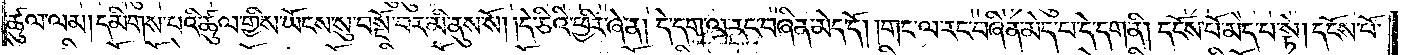ཚུལ་ལམ། དམིགས་པའི་ཚུལ་གྱིས་ཡོངས་སུ་བསྔོ་བར་མི་ནུས་སོ། །དེ་ཅིའི་ཕྱིར་ཞེ་ན། དེ་དག་ལ་རང་བཞིན་མེད་དོ། །གང་ལ་རང་བཞིན་མེད་པ་དེ་དག་ནི། དངོས་པོ་མེད་པ་སྟེ། དངོས་པོ་
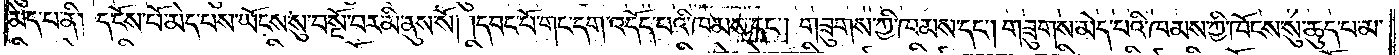མེད་པ་ནི། དངོས་པོ་མེད་པས་ཡོངས་སུ་བསྔོ་བར་མི་ནུས་སོ། །དབང་པོ་གང་དག་འདོད་པའི་ཁམས་དང༌། གཟུགས་ཀྱི་ཁམས་དང༌། གཟུགས་མེད་པའི་ཁམས་ཀྱི་ཁོངས་སུ་ཆུད་པ་མ་
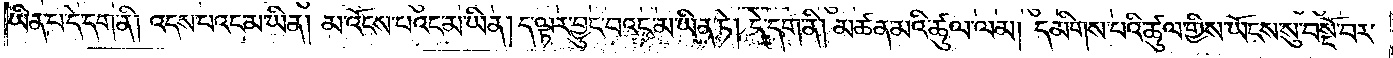ཡིན་པ་དེ་དག་ནི། འདས་པའང་མ་ཡིན། མ་འོངས་པའང་མ་ཡིན། ད་ལྟར་བྱུང་བའང་མ་ཡིན་ཏེ། དེ་དག་ནི། མཚན་མའི་ཚུལ་ལམ། དམིགས་པའི་ཚུལ་གྱིས་ཡོངས་སུ་བསྔོ་བར་
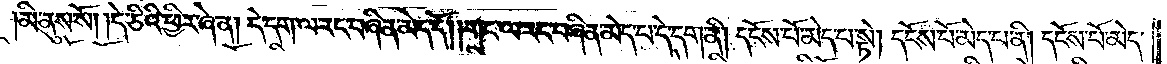མི་ནུས་སོ། །དེ་ཅིའི་ཕྱིར་ཞེ་ན། དེ་དག་ལ་རང་བཞིན་མེད་དོ། །གང་ལ་རང་བཞིན་མེད་པ་དེ་དག་ནི། དངོས་པོ་མེད་པ་སྟེ། དངོས་པོ་མེད་པ་ནི། དངོས་པོ་མེད་
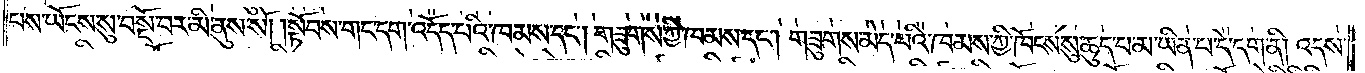པས་ཡོངས་སུ་བསྔོ་བར་མི་ནུས་སོ། །སྟོབས་གང་དག་འདོད་པའི་ཁམས་དང༌། གཟུགས་ཀྱི་ཁམས་དང༌། གཟུགས་མེད་པའི་ཁམས་ཀྱི་ཁོངས་སུ་ཆུད་པ་མ་ཡིན་པ་དེ་དག་ནི། འདས་
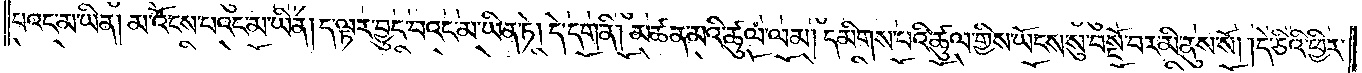པའང་མ་ཡིན། མ་འོངས་པའང་མ་ཡིན། ད་ལྟར་བྱུང་བའང་མ་ཡིན་ཏེ། དེ་དག་ནི། མཚན་མའི་ཚུལ་ལམ། དམིགས་པའི་ཚུལ་གྱིས་ཡོངས་སུ་བསྔོ་བར་མི་ནུས་སོ། །དེ་ཅིའི་ཕྱིར་
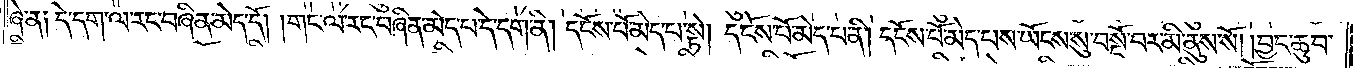ཞེ་ན༑ དེ་དག་ལ་རང་བཞིན་མེད་དོ། །གང་ལ་རང་བཞིན་མེད་པ་དེ་དག་ནི། དངོས་པོ་མེད་པ་སྟེ། དངོས་པོ་མེད་པ་ནི། དངོས་པོ་མེད་པས་ཡོངས་སུ་བསྔོ་བར་མི་ནུས་སོ། །བྱང་ཆུབ་
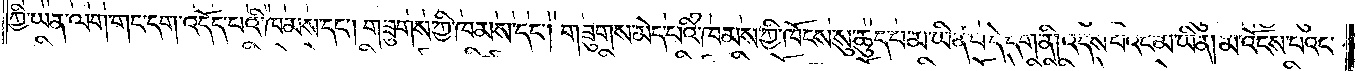ཀྱི་ཡན་ལག་གང་དག་འདོད་པའི་ཁམས་དང༌། གཟུགས་ཀྱི་ཁམས་དང༌། གཟུགས་མེད་པའི་ཁམས་ཀྱི་ཁོངས་སུ་ཆུད་པ་མ་ཡིན་པ་དེ་དག་ནི། འདས་པའང་མ་ཡིན། མ་འོངས་པའང་
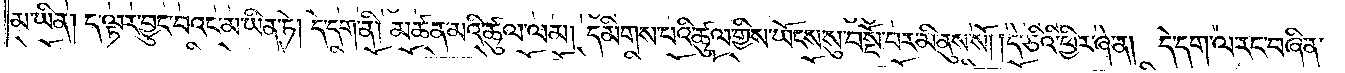མ་ཡིན། ད་ལྟར་བྱུང་པའང་མ་ཡིན་ཏེ། དེ་དག་ནི། མཚན་མའི་ཚུལ་ལམ། དམིགས་པའི་ཚུལ་གྱིས་ཡོངས་སུ་བསྔོ་བར་མི་ནུས་སོ། །དེ་ཅིའི་ཕྱིར་ཞེ་ན། དེ་དག་ལ་རང་བཞིན་
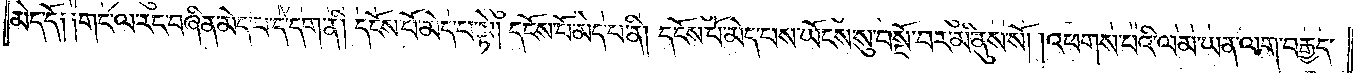མེད་དོ༑ ༑གང་ལ་རང་བཞིན་མེད་པ་དེ་དག་ནི། དངོས་པོ་མེད་པ་སྟེ། དངོས་པོ་མེད་པ་ནི། དངོས་པོ་མེད་པས་ཡོངས་སུ་བསྔོ་བར་མི་ནུས་སོ། །འཕགས་པའི་ལམ་ཡན་ལག་བརྒྱད་
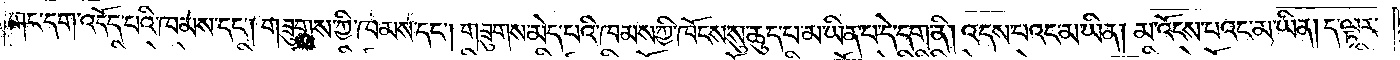གང་དག་འདོད་པའི་ཁམས་དང༌། གཟུགས་ཀྱི་ཁམས་དང༌། གཟུགས་མེད་པའི་ཁམས་ཀྱི་ཁོངས་སུ་ཆུད་པ་མ་ཡིན་པ་དེ་དག་ནི། འདས་པའང་མ་ཡིན། མ་འོངས་པའང་མ་ཡིན། ད་ལྟར་
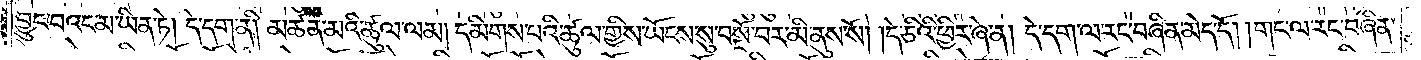བྱུང་བའང་མ་ཡིན་ཏེ། དེ་དག་ནི། མཚན་མའི་ཚུལ་ལམ། དམིགས་པའི་ཚུལ་གྱིས་ཡོངས་སུ་བསྔོ་བར་མི་ནུས་སོ། །དེ་ཅིའི་ཕྱིར་ཞེ་ན། དེ་དག་ལ་རང་བཞིན་མེད་དོ། གང་ལ་རང་བཞིན་
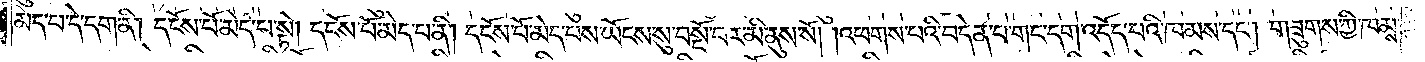མེད་པ་དེ་དག་ནི། དངོས་པོ་མེད་པ་སྟེ། དངོས་པོ་མེད་པ་ནི། དངོས་པོ་མེད་པས་ཡོངས་སུ་བསྔོ་བར་མི་ནུས་སོ། །འཕགས་པའི་བདེན་པ་གང་དག་འདོད་པའི་ཁམས་དང༌། གཟུགས་ཀྱི་ཁམས་
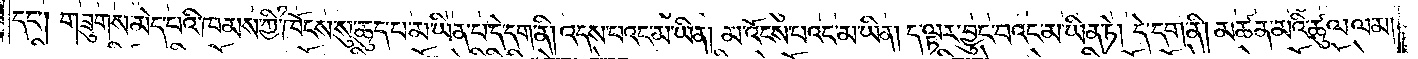དང༌། གཟུགས་མེད་པའི་ཁམས་ཀྱི་ཁོངས་སུ་ཆུད་པ་མ་ཡིན་པ་དེ་དག་ནི། འདས་པའང་མ་ཡིན། མ་འོངས་པའང་མ་ཡིན། ད་ལྟར་བྱུང་བའང་མ་ཡིན་ཏེ། དེ་དག་ནི། མཚན་མའི་ཚུལ་ལམ།
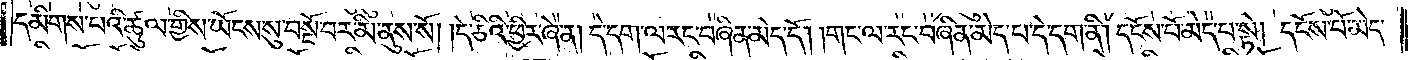དམིགས་པའི་ཚུལ་གྱིས་ཡོངས་སུ་བསྔོ་བར་མི་ནུས་སོ། །དེ་ཅིའི་ཕྱིར་ཞེ་ན། དེ་དག་ལ་རང་བཞིན་མེད་དོ། །གང་ལ་རང་བཞིན་མེད་པ་དེ་དག་ནི། དངོས་པོ་མེད་པ་སྟེ། དངོས་པོ་མེད་
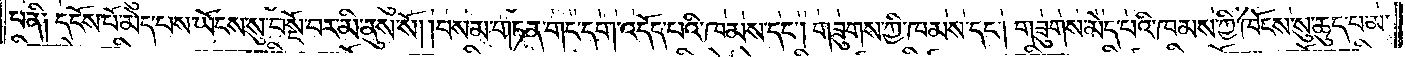པ་ནི༑ དངོས་པོ་མེད་པས་ཡོངས་སུ་བསྔོ་བར་མི་ནུས་སོ། །བསམ་གཏན་གང་དག་འདོད་པའི་ཁམས་དང༌། གཟུགས་ཀྱི་ཁམས་དང༌། གཟུགས་མེད་པའི་ཁམས་ཀྱི་ཁོངས་སུ་ཆུད་པ་མ་
